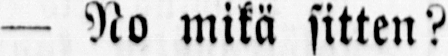— No mikä sitten?
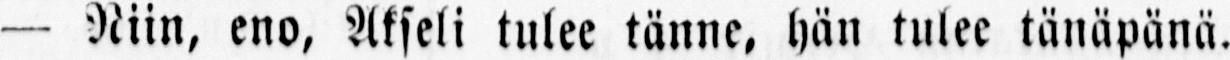— Niin, eno, Akseli tulee tänne, hän tulee tänäpänä.
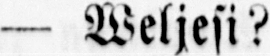— Weljesi?
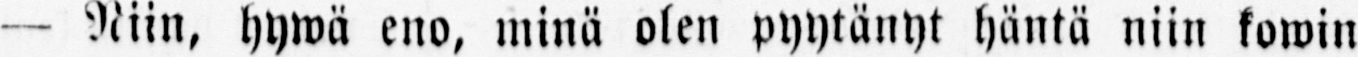— Niin, hywä eno, minä olen pyytänyt häntä niin kowin
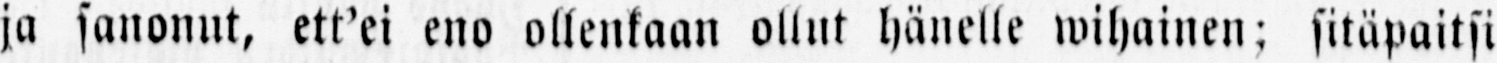ja sanonut, ett’ei eno ollenkaan ollut hänelle wihainen: sitäpaitsi
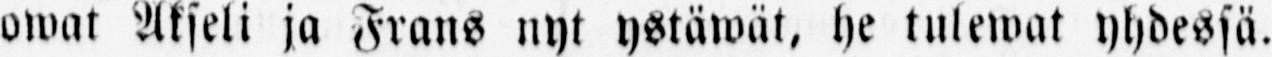owat Akseli ja nyt ystäwät, he tulewat yhdessä.
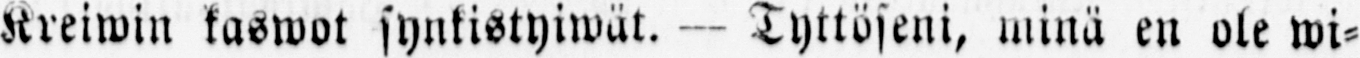Kreiwin kaswot synkistyiwät. — Tyttöseni, minä en ole wi-
